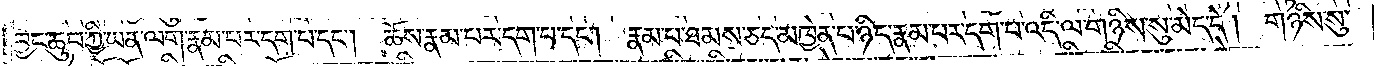བྱང་ཆུབ་ཀྱི་ཡན་ལག་རྣམ་པར་དག་པ་དང༌། ཆོས་རྣམ་པར་དག་པ་དང༌། རྣམ་པ་ཐམས་ཅད་མཁྱེན་པ་ཉིད་རྣམ་པར་དག་པ་འདི་ལ་གཉིས་སུ་མེད་དེ། གཉིས་སུ་
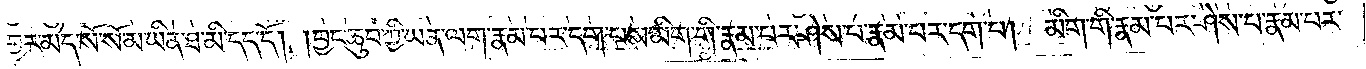བྱར་མེད་སོ་སོ་མ་ཡིན་ཐ་མི་དད་དོ། །བྱང་ཆུབ་ཀྱི་ཡན་ལག་རྣམ་པར་དག་པས་མིག་གི་རྣམ་པར་ཤེས་པ་རྣམ་པར་དག་པ། མིག་གི་རྣམ་པར་ཤེས་པ་རྣམ་པར་
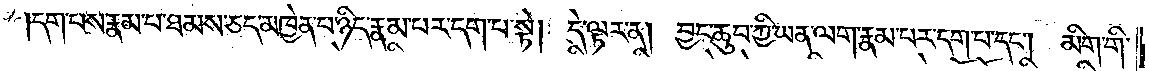དག་པས་རྣམ་པ་ཐམས་ཅད་མཁྱེན་པ་ཉིད་རྣམ་པར་དག་པ་སྟེ། དེ་ལྟར་ན། བྱང་ཆུབ་ཀྱི་ཡན་ལག་རྣམ་པར་དག་པ་དང༌། མིག་གི་
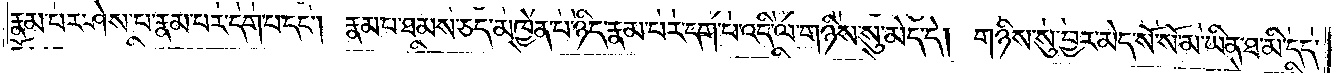རྣམ་པར་ཤེས་པ་རྣམ་པར་དག་པ་དང༌། རྣམ་པ་ཐམས་ཅད་མཁྱེན་པ་ཉིད་རྣམ་པར་དག་པ་འདི་ལ་གཉིས་སུ་མེད་དེ། གཉིས་སུ་བྱར་མེད་སོ་སོ་མ་ཡིན་ཐ་མི་དད་
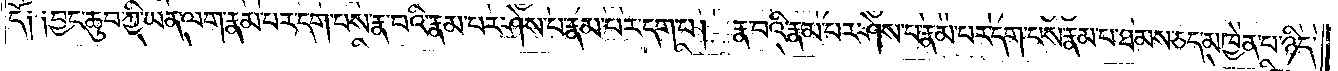དོ༑ ༑བྱང་ཆུབ་ཀྱི་ཡན་ལག་རྣམ་པར་དག་པས་རྣ་བའི་རྣམ་པར་ཤེས་པ་རྣམ་པར་དག་པ། རྣ་བའི་རྣམ་པར་ཤེས་པ་རྣམ་པར་དག་པས་རྣམ་པ་ཐམས་ཅད་མཁྱེན་པ་ཉིད་
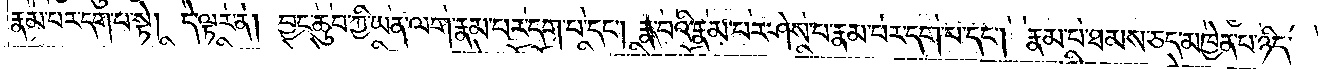རྣམ་པར་དག་པ་སྟེ། དེ་ལྟར་ན། བྱང་ཆུབ་ཀྱི་ཡན་ལག་རྣམ་པར་དག་པ་དང༌། རྣ་བའི་རྣམ་པར་ཤེས་པ་རྣམ་པར་དག་པ་དང༌། རྣམ་པ་ཐམས་ཅད་མཁྱེན་པ་ཉིད་
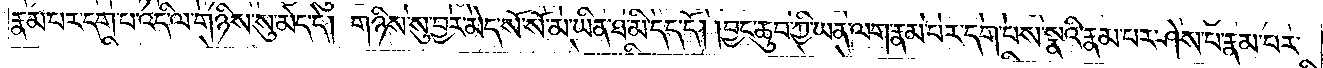རྣམ་པར་དག་པ་འདི་ལ་གཉིས་སུ་མེད་དེ། གཉིས་སུ་བྱར་མེད་སོ་སོ་མ་ཡིན་ཐ་མི་དད་དོ། །བྱང་ཆུབ་ཀྱི་ཡན་ལག་རྣམ་པར་དག་པས་སྣའི་རྣམ་པར་ཤེས་པ་རྣམ་པར་
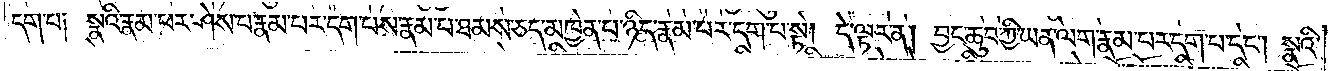དག་པ༑ སྣའི་རྣམ་པར་ཤེས་པ་རྣམ་པར་དག་པས་རྣམ་པ་ཐམས་ཅད་མཁྱེན་པ་ཉིད་རྣམ་པར་དག་པ་སྟེ། དེ་ལྟར་ན། བྱང་ཆུབ་ཀྱི་ཡན་ལག་རྣམ་པར་དག་པ་དང༌། སྣའི་
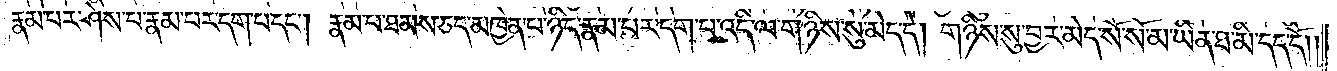རྣམ་པར་ཤེས་པ་རྣམ་པར་དག་པ་དང༌། རྣམ་པ་ཐམས་ཅད་མཁྱེན་པ་ཉིད་རྣམ་པར་དག་པ་འདི་ལ་གཉིས་སུ་མེད་དེ། གཉིས་སུ་བྱར་མེད་སོ་སོ་མ་ཡིན་ཐ་མི་དད་དོ། །
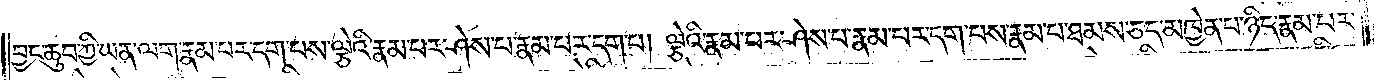བྱང་ཆུབ་ཀྱི་ཡན་ལག་རྣམ་པར་དག་པས་ལྕེའི་རྣམ་པར་ཤེས་པ་རྣམ་པར་དག་པ། ལྕེའི་རྣམ་པར་ཤེས་པ་རྣམ་པར་དག་པས་རྣམ་པ་ཐམས་ཅད་མཁྱེན་པ་ཉིད་རྣམ་པར་
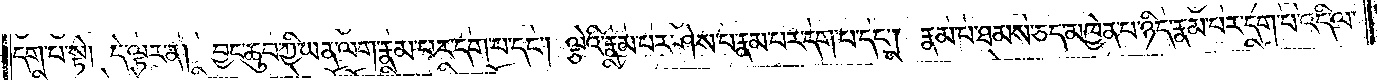དག་པ་སྟེ། དེ་ལྟར་ན། བྱང་ཆུབ་ཀྱི་ཡན་ལག་རྣམ་པར་དག་པ་དང༌། ལྕེའི་རྣམ་པར་ཤེས་པ་རྣམ་པར་དག་པ་དང༌། རྣམ་པ་ཐམས་ཅད་མཁྱེན་པ་ཉིད་རྣམ་པར་དག་པ་འདི་ལ་
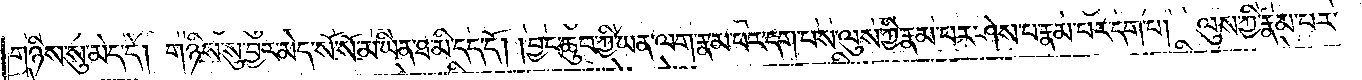གཉིས་སུ་མེད་དེ། གཉིས་སུ་བྱར་མེད་སོ་སོ་མ་ཡིན་ཐ་མི་དད་དོ། །བྱང་ཆུབ་ཀྱི་ཡན་ལག་རྣམ་པར་དག་པས་ལུས་ཀྱི་རྣམ་པར་ཤེས་པ་རྣམ་པར་དག་པ། ལུས་ཀྱི་རྣམ་པར་
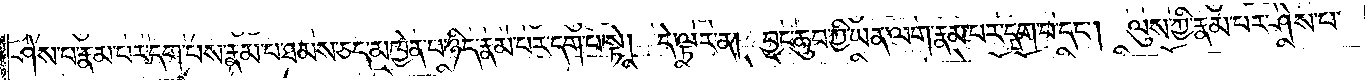ཤེས་པ་རྣམ་པར་དག་པས་རྣམ་པ་ཐམས་ཅད་མཁྱེན་པ་ཉིད་རྣམ་པར་དག་པ་སྟེ། དེ་ལྟར་ན། བྱང་ཆུབ་ཀྱི་ཡན་ལག་རྣམ་པར་དག་པ་དང༌། ལུས་ཀྱི་རྣམ་པར་ཤེས་པ་
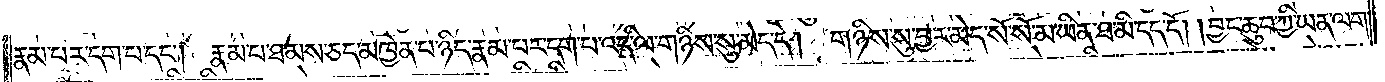རྣམ་པར་དག་པ་དང༌། རྣམ་པ་ཐམས་ཅད་མཁྱེན་པ་ཉིད་རྣམ་པར་དག་པ་འདི་ལ་གཉིས་སུ་མེད་དེ། གཉིས་སུ་བྱར་མེད་སོ་སོ་མ་ཡིན་ཐ་མི་དད་དོ། །བྱང་ཆུབ་ཀྱི་ཡན་ལག་
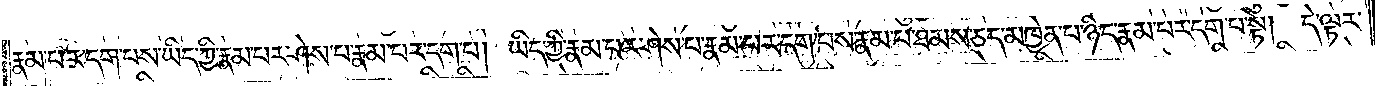རྣམ་པར་དག་པས་ཡིད་ཀྱི་རྣམ་པར་ཤེས་པ་རྣམ་པར་དག་པ། ཡིད་ཀྱི་རྣམ་པར་ཤེས་པ་རྣམ་པར་དག་པས་རྣམ་པ་ཐམས་ཅད་མཁྱེན་པ་ཉིད་རྣམ་པར་དག་པ་སྟེ། དེ་ལྟར་
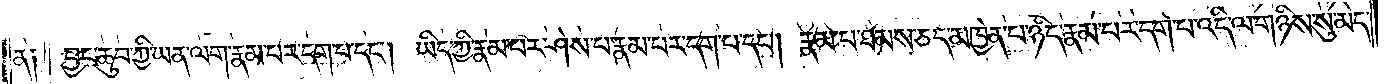ན༑ བྱང་ཆུབ་ཀྱི་ཡན་ལག་རྣམ་པར་དག་པ་དང༌། ཡིད་ཀྱི་རྣམ་པར་ཤེས་པ་རྣམ་པར་དག་པ་དང༌། རྣམ་པ་ཐམས་ཅད་མཁྱེན་པ་ཉིད་རྣམ་པར་དག་པ་འདི་ལ་གཉིས་སུ་མེད་
